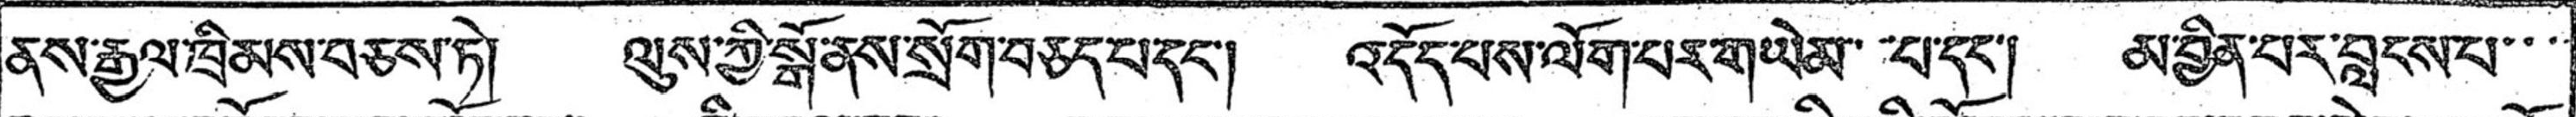ནས་རྒྱལ་ཁྲིམས་བཅས་ཏེ། ལུས་ཀྱི་སྒོ་ནས་སྲོག་བཅད་པ་དང་། འདོད་པས་ལོག་པར་གཡེམ་ ་པ་དང་། མ་བྱིན་པར་བླངས་པ་་་་
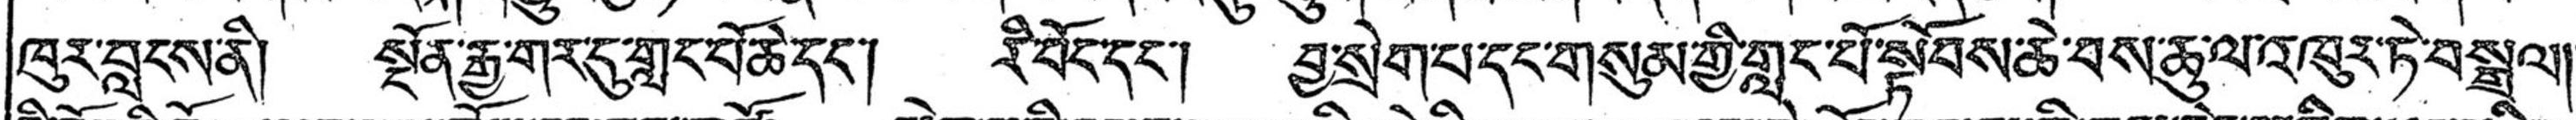ཁུར་བླངས་ནི། སྔོན་རྒྱ་གར་དུ་གླང་པོ་ཆེ་དང་། རི་བོང་དང་། བྱ་སྲེག་པ་དང་གསུམ་གྱི་གླང་པོ་སྟོབས་ཆེ་བས་ཆུ་ལ་འཁུར་ཏེ་བསྒྲལ།
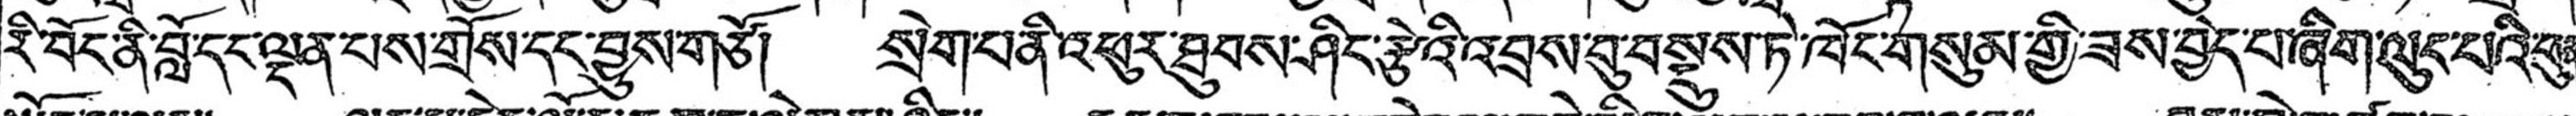རི་བོང་ནི་བློ་དང་ལྡན་པས་གྲོས་དང་བྱུས་གཙོ། སྲེག་པ་ནི་འཕུར་ཐུབས་ཤིང་རྩེའི་འབྲས་བུ་བསྡུས་ཏེ་ཁོང་གསུམ་གྱི་ཟས་བྱེད་པ་ཞིག་ལུང་པའི་ཕུན་
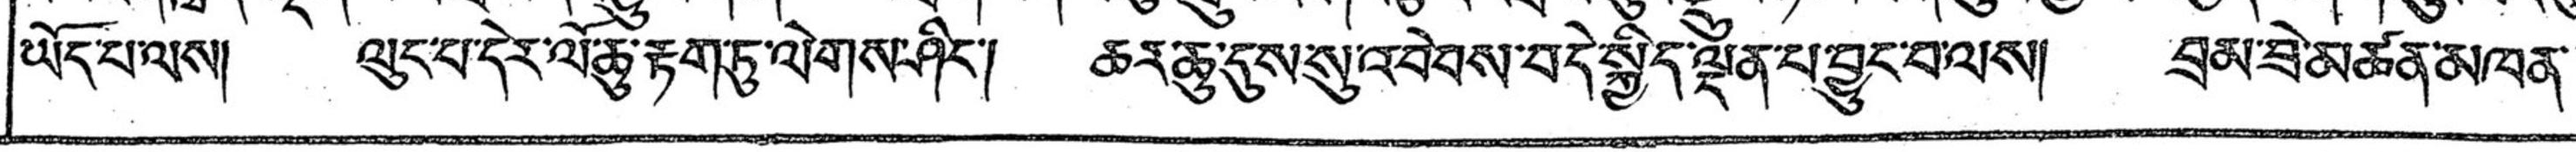ཡོད་པ་ལས། ལུང་པ་དེར་ལོ་ཆུ་རྟག་ཏུ་ལེགས་ཤིང་། ཆར་ཆུ་དུས་སུ་འབེབས་བདེ་སྐྱིད་ལྡན་པ་བྱུང་བ་ལས། བྲམ་ཟེ་མཚན་མཁན་་
